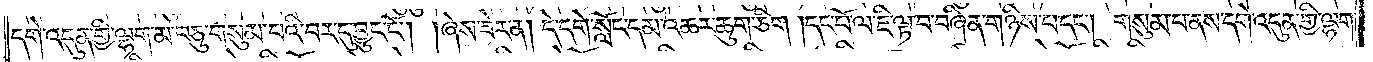དགེ་འདུན་གྱི་ལྷག་མ་བཅུ་གསུམ་པའི་བར་དུ་བྱུང་ངོ༌། །ཞེས་ཟེར་ན། དེ་དགེ་སློང་དམ་འཆར་ཆུག་ཅིག །དང་པོ་ལ་ཇི་ལྟ་བ་བཞིན་གཉིས་པ་དང༌། གསུམ་པ་ནས་དགེ་འདུན་གྱི་ལྷག་
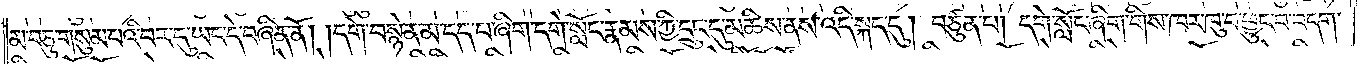མ་བཅུ་གསུམ་པའི་བར་དུ་ཡང་དེ་བཞིན་ནོ། །དགེ་བསྙེན་མ་དད་པ་ཞིག་དགེ་སློང་རྣམས་ཀྱི་དྲུང་དུ་མཆིས་ནས་འདི་སྐད་དུ། བཙུན་པ། དགེ་སློང་ཞིག་གིས་ཁར་ཁུ་བ་ཕྱུང་བ་བདག་
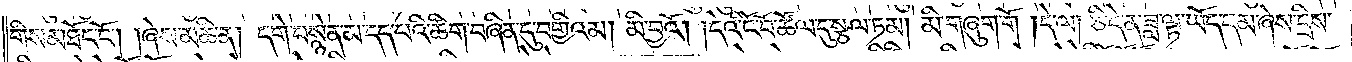གིས་མཐོང་ངོ༌། །ཞེས་མཆི་ན། དགེ་བསྙེན་མ་དད་པའི་ཚིག་བཞིན་དུ་བགྱིའམ། མི་བྱའོ། །དེའི་ངོ་བོ་ཚོལ་དུ་སྩལ་ཏམ། མི་གཞུག་གོ །དེ་ལ། ཅི་དེ་ན་ཟླ་ལྟ་ཡོད་དམ་ཞེས་དྲིས་
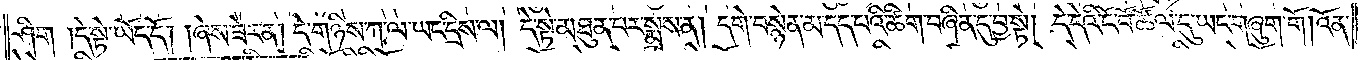ཤིག །དེ་སྟེ་ཡོད་དོ། །ཞེས་ཟེར་ན། དེ་གཉིས་ཀ་ལ་ཡང་དྲིས་ལ། དེ་སྟེ་མཐུན་པར་སྨྲས་ན། དགེ་བསྙེན་མ་དད་པའི་ཚིག་བཞིན་དུ་བྱ་སྟེ། དེ་དེའི་ངོ་བོ་ཚོལ་དུ་ཡང་གཞུག་གོ །འོན་
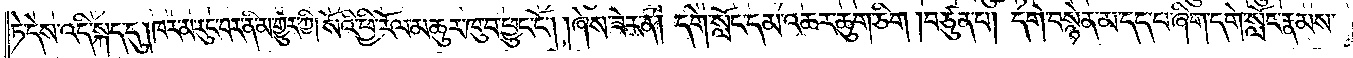ཏེ་དེས་འདི་སྐད་དུ། ཁར་མ་རུང་བར་ནི་མ་གྱུར་ཀྱི། སོའི་ཕྱི་རོལ་མཆུར་ཁུ་བ་ཕྱུང་ངོ༌། །ཞེས་ཟེར་ན། དགེ་སློང་དམ་འཆར་ཆུག་ཅིག །བཙུན་པ། དགེ་བསྙེན་མ་དད་པ་ཞིག་དགེ་སློང་རྣམས་
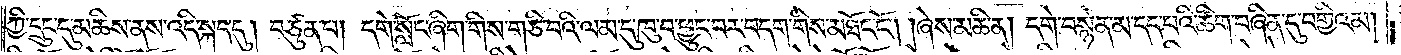ཀྱི་དྲུང་དུ་མཆིས་ནས་འདི་སྐད་དུ། བཙུན་པ། དགེ་སློང་ཞིག་གིས་གཅི་བའི་ལམ་དུ་ཁུ་བ་ཕྱུང་བར་བདག་གིས་མཐོང་ངོ༌། །ཞེས་མཆི་ན། དགེ་བསྙེན་མ་དད་པའི་ཚིག་བཞིན་དུ་བགྱིའམ།
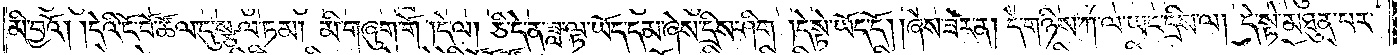མི་བྱའོ། །དེའི་ངོ་བོ་ཚོལ་དུ་སྩལ་ཏམ། མི་གཞུག་གོ །དེ་ལ། ཅི་དེ་ན་ཟླ་ལྟ་ཡོད་དམ་ཞེས་དྲིས་ཤིག །དེ་སྟེ་ཡོད་དོ། །ཞེས་ཟེར་ན། དེ་གཉིས་ཀ་ལ་ཡང་དྲིས་ལ། དེ་སྟེ་མཐུན་པར་
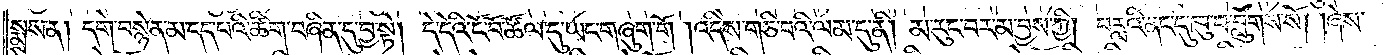སྨྲས་ན། དགེ་བསྙེན་མ་དད་པའི་ཚིག་བཞིན་དུ་བྱ་སྟེ། དེ་དེའི་ངོ་བོ་ཚོལ་དུ་ཡང་གཞུག་གོ །འདིས་གཅི་བའི་ལམ་དུ་ནི། མ་རུང་བར་མ་བྱས་ཀྱི། བརླའི་ནང་དུ་ཁུ་བ་བླུགས་སོ། །ཞེས་
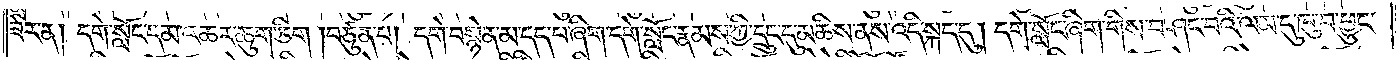ཟེར་ན། དགེ་སློང་དམ་འཆར་ཆུག་ཅིག །བཙུན་པ། དགེ་བསྙེན་མ་དད་པ་ཞིག་དགེ་སློང་རྣམས་ཀྱི་དྲུང་དུ་མཆིས་ནས་འདི་སྐད་དུ། དགེ་སློང་ཞིག་གིས་བཤང་བའི་ལམ་དུ་ཁུ་བ་ཕྱུང་
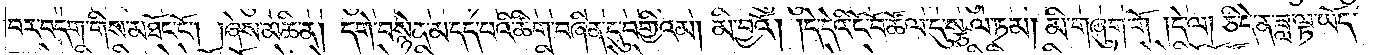བར་བདག་གིས་མཐོང་ངོ༌། །ཞེས་མཆི་ན། དགེ་བསྙེན་མ་དད་པའི་ཚིག་བཞིན་དུ་བགྱིའམ། མི་བྱའོ། །དེ་དེའི་ངོ་བོ་ཚོལ་དུ་སྩལ་ཏམ། མི་གཞུག་གོ །དེ་ལ། ཅི་དེ་ན་ཟླ་ལྟ་ཡོད་
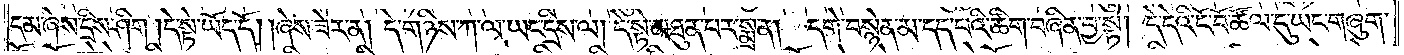དམ་ཞེས་དྲིས་ཤིག །དེ་སྟེ་ཡོད་དོ། །ཞེས་ཟེར་ན། དེ་གཉིས་ཀ་ལ་ཡང་དྲིས་ལ། དེ་སྟེ་མཐུན་པར་སྨྲ་ན། དགེ་བསྙེན་མ་དད་པའི་ཚིག་བཞིན་བྱ་སྟེ། དེ་དེའི་ངོ་བོ་ཚོལ་དུ་ཡང་གཞུག་
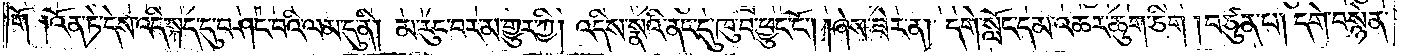གོ །འོན་ཏེ་དེས་འདི་སྐད་དུ་བཤང་བའི་ལམ་དུ་ནི། མ་རུང་བར་མ་གྱུར་ཀྱི། འདིས་སྣའི་ནང་དུ་ཁུ་བ་ཕྱུང་ངོ༌། །ཞེས་ཟེར་ན། དགེ་སློང་དམ་འཆར་ཆུག་ཅིག །བཙུན་པ། དགེ་བསྙེན་
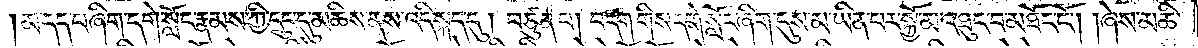མ་དད་པ་ཞིག་དགེ་སློང་རྣམས་ཀྱི་དྲུང་དུ་མཆིས་ནས་འདི་སྐད་དུ། བཙུན་པ། བདག་གིས་དགེ་སློང་ཞིག་དུས་མ་ཡིན་པར་སྐྱོ་མ་འཐུང་བ་མཐོང་ངོ༌། །ཞེས་མཆི་
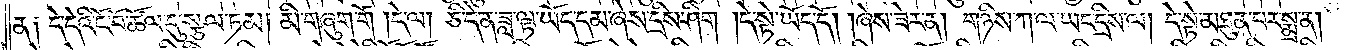ན༑ དེ་དེའི་ངོ་བོ་ཚོལ་དུ་སྩལ་ཏམ། མི་གཞུག་གོ །དེ་ལ། ཅི་དེ་ན་ཟླ་ལྟ་ཡོད་དམ་ཞེས་དྲིས་ཤིག །དེ་སྟེ་ཡོད་དོ། །ཞེས་ཟེར་ན། གཉིས་ཀ་ལ་ཡང་དྲིས་ལ། དེ་སྟེ་མཐུན་པར་སྨྲ་ན།
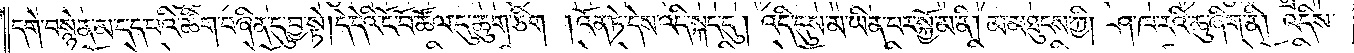དགེ་བསྙེན་མ་དད་པའི་ཚིག་བཞིན་དུ་བྱ་སྟེ། དེ་དེའི་ངོ་བོ་ཚོལ་དུ་ཆུག་ཅིག །འོན་ཏེ་དེས་འདི་སྐད་དུ། འདི་དུས་མ་ཡིན་པར་སྐྱོ་མ་ནི། མ་མཐུངས་ཀྱི། ཤ་ཁ་རའི་ཆུ་ཞིག་ནི། འདིས་
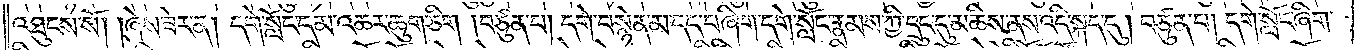འཐུངས་སོ། །ཞེས་ཟེར་ན། དགེ་སློང་དམ་འཆར་ཆུག་ཅིག །བཙུན་པ། དགེ་བསྙེན་མ་དད་པ་ཞིག་དགེ་སློང་རྣམས་ཀྱི་དྲུང་དུ་མཆིས་ནས་འདི་སྐད་དུ། བཙུན་པ། དགེ་སློང་ཞིག་
